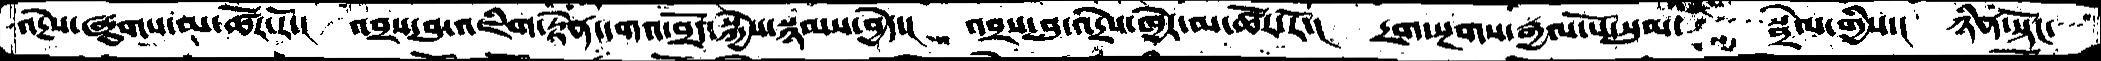འདྲེས་ཞུགས་མ་ཚོར་རོ་།  འབྲས་བུ་འཇིག་རྟེན་དགའ་བྲོད་སྐྱེས་སྙམས་བྱེད་།  འབྲས་བུ་འདྲེས་ཁྱེར་མ་ཚོར་རོ་།  དྲག་སྔགས་རྒྱལ་པོ་སུམ་སྦྲེལ་གྱིས་།  ཉིན་སྟོང་
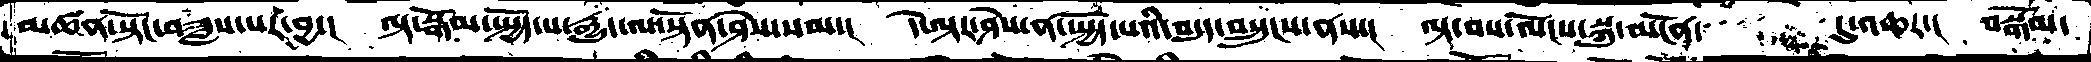མཚན་སྟོང་བཟླས་པར་བྱ་།  ལྟ་སྒོམ་སྤྱོད་པ་རྒྱུད་ལ་སྟོན་ཤེས་སམ་།  དེ་ལྟར་ཤེས་ན་སྤྱོད་པའི་བདུད་བསྲུངས་ནས་།  ལྟ་བས་ལོངས་སྐུ་མངོན་དུ་འཆར་།  བསྒོམ་
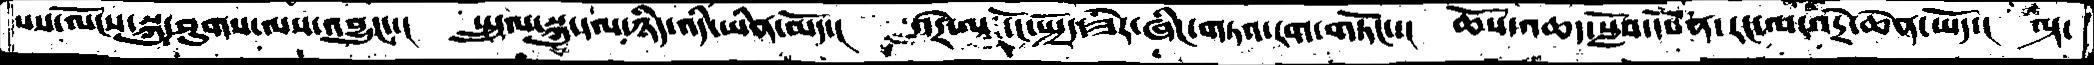པས་ལོངས་སྐུ་ཤུགས་ལས་འབྱུང་་།  སྤྲུལ་སྐུ་དལ་ཉིད་འདི་ཡིན་མོད་།  འདྲེ་ལ་ངོ་སྤྲོད་ཟེར་ཞིང་གཏའ་རག་གཏོང་་།  ཆོས་འཆད་སློབ་དཔོན་རང་ལ་འདྲེ་ཆེན་ཡོད་།  ལྟ་
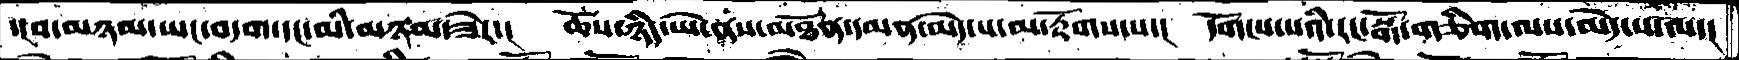་།བ་མཉམ་ཡང་བདག་དང་མི་མཉམ་ཟེར་།  ཆོས་ཉིད་ཡེ་ནས་མཐོ་དམན་མེད་པ་མ་རྟོགས་པ་།  དགོངས་པའི་རང་སྒོ་གཅིག་ལས་མེད་པ་ལ་།
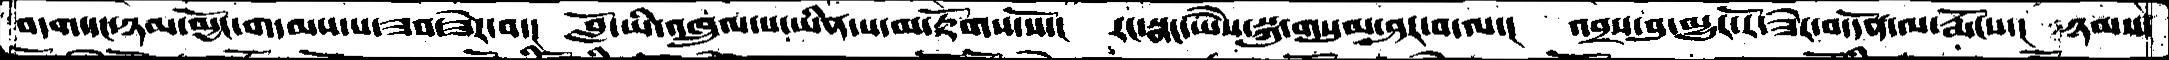བདག་དང་ཉམ་མྱོང་གདམས་པ་ཟབ་ཟེར་བ་།  བློ་ཡི་འཁྲུལ་པ་ཡིན་པ་མ་རྟོགས་སོ་།  རང་སྣང་ཡཻས་སྐུ་གསུམ་ཤར་བ་ལ་།  འབྲས་བུ་མྱུར་རོ་ཟེར་བ་དོན་ལ་རྨོངས་།  ཉམས་
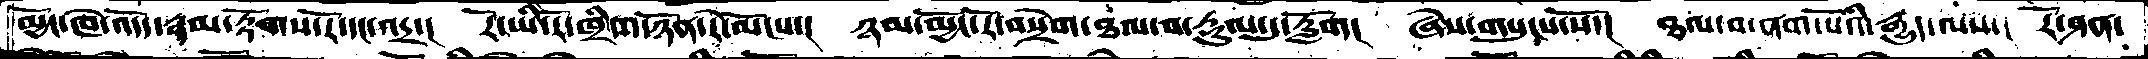མྱོང་ཁེ་འདོད་རྣམ་རྟོགས་རོ་དང་འདྲ་།  རོ་ཡི་རོ་ཁྲིག་ཉོན་རེ་མོངས་།  ཉམ་མྱོང་རོ་བསྲེག་ཐལ་བ་རྡུལ་དུ་རློག།  ཞེས་གསུངས་སོ་།  ཐལ་བ་ནག་པོའི་རྒྱུད་ལས་།  རོ་ཤན་
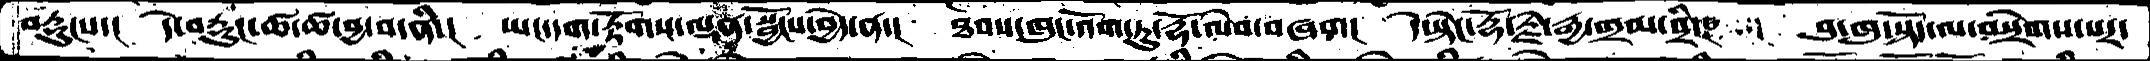བརྡུངས་།  དེ་བརྡུང་ཚ་ཚ་བྱ་བ་ནི་།  ཡང་དག་རྟོགས་ལྡན་སྦྱོངས་བྱེད་ན་།  ཐབས་ཁུང་འོག་ཏུ་དྷོ་ལེབ་བཞག།  དེ་སྟེང་རྡོ་རྗེ་རྒྱ་གྲམ་བྲི་།  བུ་ཁུ་སྟོད་ལ་བསྲེགས་པར་
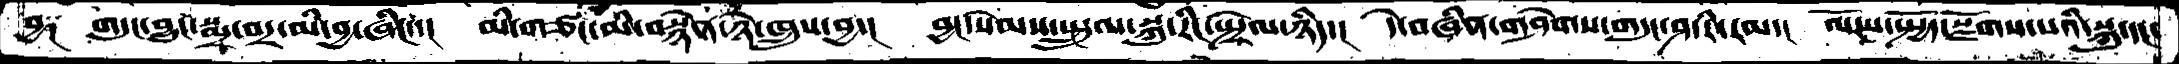བྱ༑   གདུང་བྱུང་སྨྲ་བར་མི་བྱ་ཞིང་།   མི་གཙང་མི་བསྙེན་ཉེ་ཁྲུས་བྱ་།  བྱང་སེམས་སྤྲུལ་སྐུ་རིང་སྤྲེལ་ཉིད་།  དེ་བཞིན་གཤེགས་གདུང་ཤ་རི་རམ་།  ལོངས་སྤྱོད་སྫོགས་པའི་སྐུ་དང་
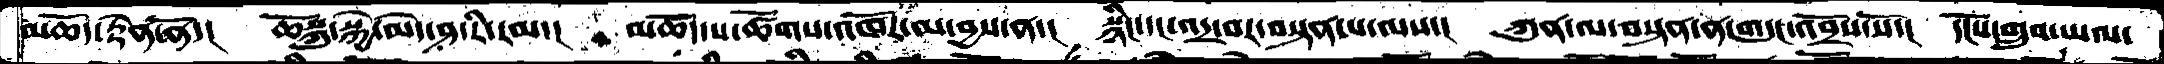མཆོད་རྟེན་ནོ་།  ཆོསྐུ་སྐྱེ་མེད་ཤ་རི་རམ་།  མཆོད་པ་ཚོགས་འཁོར་མ་བྱས་ན་།  སྙིང་དང་འདྲ་བར་བསྟན་པ་ལས་།  ཀུན་ལ་བསྟན་ན་གདུང་འབྲོས་སོ་།  དངོས་གྲུབ་ཡལ་
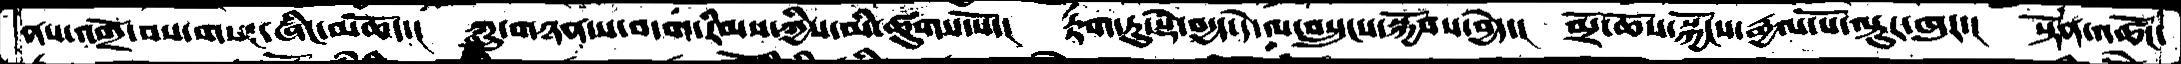ནས་འགྲོ་བས་གསང་ཞིང་མཆོད་།  ཀླུ་གཉན་ས་བདག་རིམས་ཀྱིས་མི་ཚུགས་སོ་།  རྟག་ཏུ་སྡེ་བདྱད་དེ་ལ་བསྲུངས་སྐྱོབས་བྱེད་།  མྲོ་ཆོས་སྐྱོངས་རྒྱལ་པོ་ལྟུར་ཁུར་།  སྟོན་འཚོང་
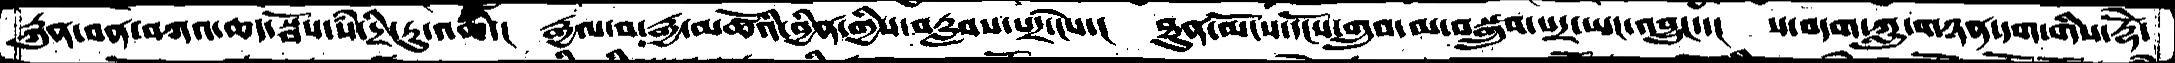རྐུན་བན་བཀའ་ཆད་སྦོས་སཾ་དྲི་རུ་འཆི་།  རྒྱལ་བ་རྒྱ་མཚོའི་བྱིན་གྱིས་བརླབས་པར་ངེས་།  ཐུན་མོངས་དངོས་གྲུབ་མ་བསྒྲུབ་པར་ཡང་འབྱུང་་།  ས་བདག་ཀླུ་གཉན་དག་གིས་རྡོ་ེ
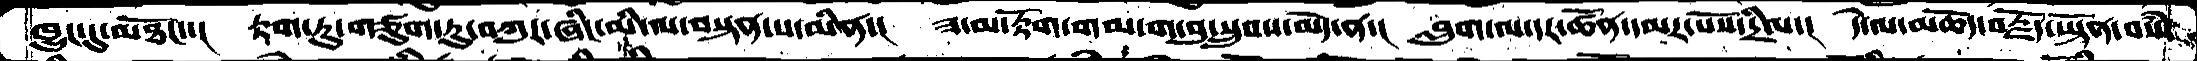ཁྱུང་དུ་མཐོང་།  རྟག་ཏུ་གཙུག་ཏུ་བཀུར་ཞིང་མི་ལ་བསྟན་པ་མིན་།  ཟ་མ་རྟོག་གམ་ག་བུ་སྲུབས་མེད་ན་།  བླུག་ལ་དར་ཚོན་དམར་པོས་དྲིལ་།  དེ་ལ་མཆོད་བརྗོད་ཡྟོན་བསཾ་
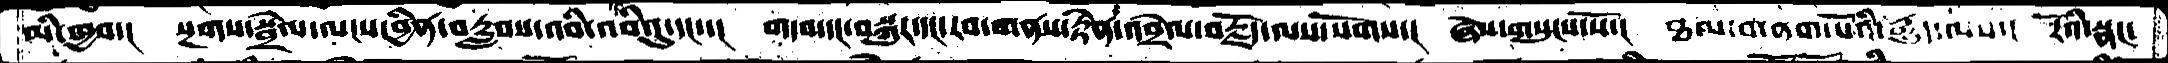མི་ཁྱབ་།  སྔགས་སྦྲེལ་ལངས་བྱིན་བརླབས་འབི་འབིའུ་དང་་།  གདབ་དང་བསྐུར་དང་རབ་གནས་རྟེན་འབྲེལ་བརྗོད་ལས་སོགས་།  ཞེས་གསུངས་སོ་།  ཐལ་བ་ནག་ནོའི་རྒྱུད་ལས་།  རོའི་སྣང་
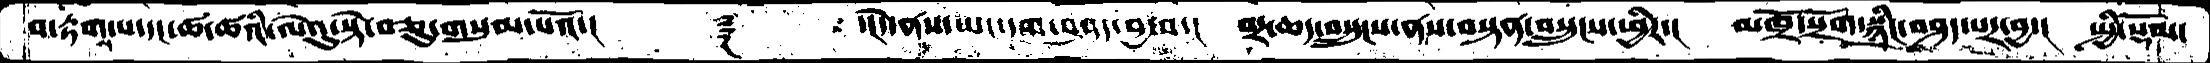བ་རྟག་པ་དང་ཚ་ཚའི་ལེའུ་སྟེ་བཅུ་གསུམ་པའོ་།    ༈  ་།དེ་ནས་ཡང་དག་བཤད་བྱ་བ་།  བར་ཆད་བསྲུངས་ནས་བསྟན་བསྲུངས་ཕྱིར་།  མཁྲོ་སྲོག་སྙིང་བཤད་པར་བྱ་།  སྤྱི་སྡོམ་
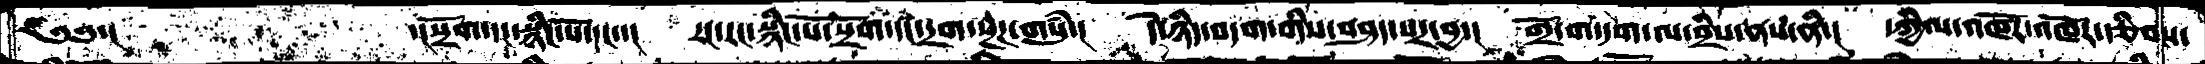༄༅་།      ་།་སྲོག་དང་སྙིང་པོ་དང་་།  རང་རང་སྙིང་པོ་སྲོག་དང་དྲག་སྔཌ་གསུཾ་།  དེ་ཉིད་བདག་གིས་བཤད་པར་བྱ་།  གྲོ་ག་དག་ལ་བྲིས་ནས་ནི་།  དཀྱིལ་འཁོར་འཁོར་རྩིབས་
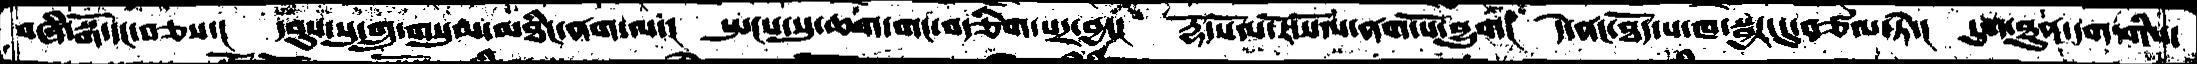བཞི་སྒོ་དང་བཅས་།  དབུས་སུ་གྲུ་གསུམ་མཐིང་ནག་ལ་།  སྤངས་སུ་ཆག་གང་བརྩིག་པར་བྱ་།  རྡོ་སོལ་རོ་སོལ་ནག་པོ་བྱུག།  དེ་ནང་ཐོད་པ་ཁ་སྦྱར་དུ་བཙལ་ཏེ་།  དུག་ཐུན་དག་གིས་
